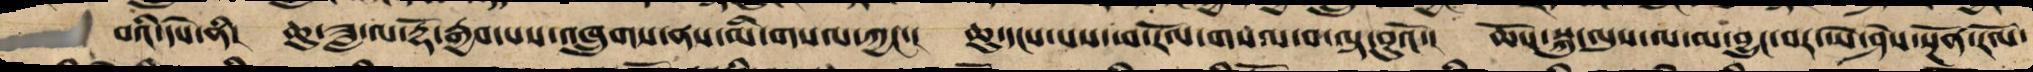བའི་དཔེ་ནི། ཆུ་ཟླ་ལ་རྡོ་རྒྱབ་པས་འཁྲུགས་ནས་མི་གསལ་ཀྱང་། ཆུ་དངས་པས་ཕ་རོལ་གསལ་བ་ལྟ་བུའོ་། ཆོས་སྐུ་ལུས་ལ་མ་བྱུང་བར་ཡེ་ཤེས་སྔོན་རོལ་
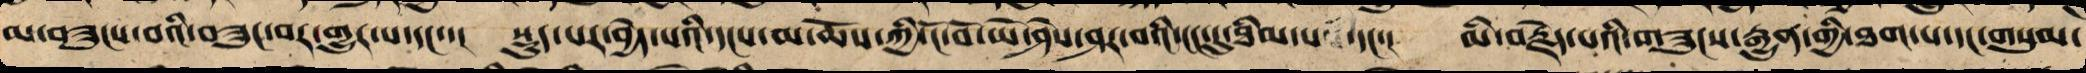མ་བཟུངས་བའི་བཟུང་བར་འགྱུར་བ་དང་་། སྡུད་པར་བྱེད་པའི་དངས་མ་ཆོས་ཀྱི་ངོ་བོ་ཡེ་ཤེས་ཤར་བའི་ངང་དུ་ཐིམ་པ ་དང་། མི་བརྗེད་པའི་གཟུངས་རྒྱུན་གྱི་ཐག་པ་དང་གསུམ་
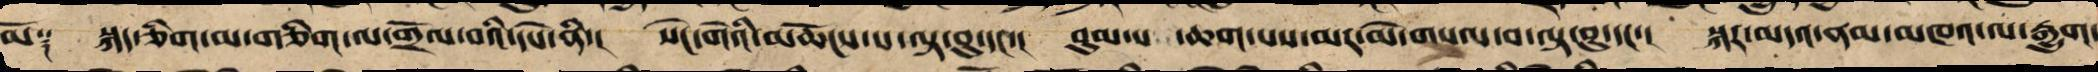མོ༑ སྐད་ཅིག་མ་གཅིག་ལ་གྲོལ་བའི་དཔེ་ནི་། སེང་གེའི་མཆོངས་པ་ལྟ་བུ་དང་། བུམ་པ ་ཆག་པས་མར་མེ་གསལ་བ་ལྟ་བུ་དང་། སྐར་མདའ་ནམ་མཁའ་ལ་རྒྱུག་
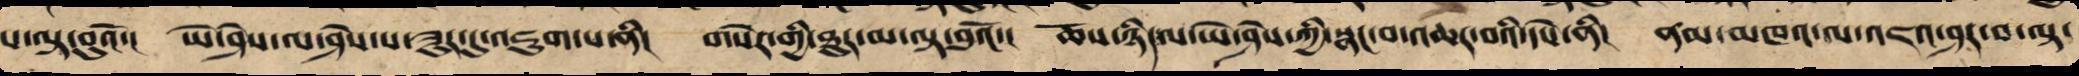པ་ལྟ་བུའོ་། ཡེ་ཤེས་ལ་ཤེས་པ་ཟུར་དུ་འཇུག་པ་ནི། གསེར་གྱི་ཐུར་མ་ལྟ་བུའོ་། ཆོས་ཉིད་ལ་ཡེ་ཤེས་ཀྱི་སྣང་བ་འཆར་བའི་དཔེ་ནི། ནམ་མཁའ་ལ་འཇའ་ཤར་བ་ལྟ་
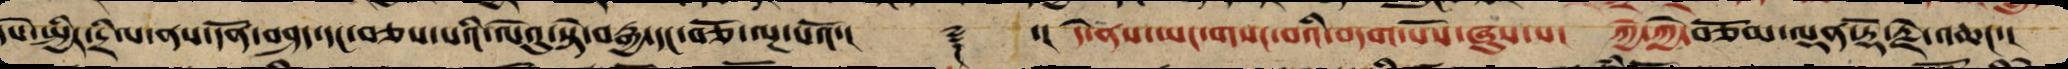དཔེ་སྤྱིར་དྲིལ་ནས་དོན་བཤད་དང་བཅས་པའི་ལེའུ་སྟེ་བརྒྱ་དང་བཅོ་ལྔ་པའོ་། ༈ ་། དེ་ནས་ཡང་གསང་བའི་བདག་པོས་ཞུས་པ། ཀྱེ་ཀྱེ་བཅོམ་ལྡན་རྡོ་རྗེ་འཆང་།
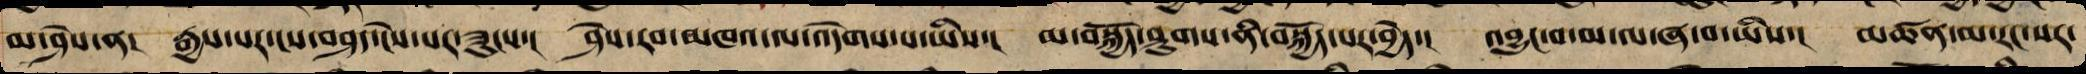མ་ཤེས་ན། རྒྱས་པར་ངས་བཤད་ངེས་པར་ཟུངས་། ཤེས་རབ་མཁའ་ལ་འདེགས་པ་ཡིས་། མ་བསྐྱོད་ཤུགས་ནི་བསྐྱོད་པར་བྱེད་། འབྱུང་བ་མ་ལ་ཞ་བ་ཡིས་། མཚན་མ་རང་སར་
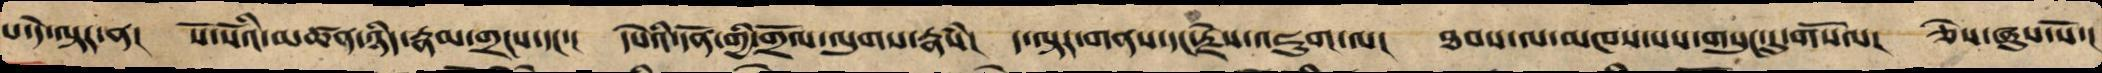པ་དེ་ལྟར་ན། སོ་སོའི་མཚན་ཉིད་རྣམ་གྲངས་དང་། དཔེའི་དོན་གྱི་གྲོལ་ལུགས་རྣཾས། ད་ལྟར་གནས་དང་རྗེས་འཇུག་ལ། ཐབས་ལ་མཁས་པས་གསུང་དུ་གསོལ། ཅེས་ཞུས་སོ་།
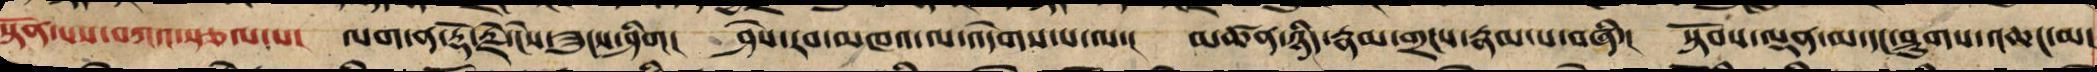སྟོན་པས་བཀའ་སྩལ་པ། ལག་ན་རྡོ་རྗེ་ངེས་ཟུངས་ཤིག། ཤེས་རབ་མཁའ་ལ་འདེགས་པ་ལ་། མཚན་ཉིད་རྣམ་གྲངས་རྣམ་པ་བཞི་། སྟོབས་ལྡན་མ་དང་ཤུགས་འཆང་མ།
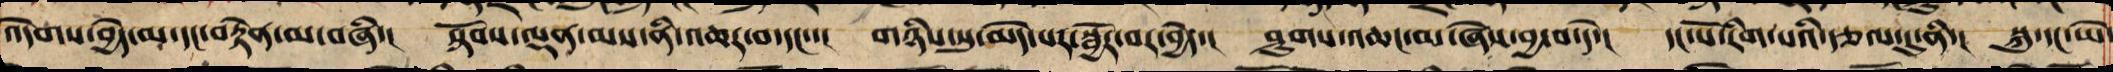འདེགས་བྱེད་མ་དང་བརྟེན་མ་བཞི་། སྟོབས་ལྡན་མས་ནི་འཆར་བ་དང་་། གཉིས་སུ་མེད་པར་སྦྱོར་བར་བྱེད་། ཤུགས་འཆང་མ་ཞེས་བྱ་བ་དེ་། དང་པོ་རིག་པའི་རྩལ་དུ་ནི་། སྐུ་དང་ཡེ་
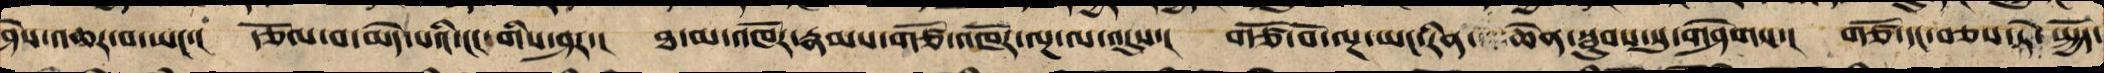ཤེས་འཆར་བ་ཡང་། རྩོལ་བ་མེད་པའི་ངང་གིས་ཤར་། ཐ་མ་འཁོར་རྣམས་གཙོ་འཁོར་ལྔ་ལ་འདུས་། གཙོ་བོ་ལྔ་ཡང་རིན་ ཆེན་སྦུབས་སུ་གཤེགས་། གཙོ་དང་བཅས་ཏེ་སྤྱོད་
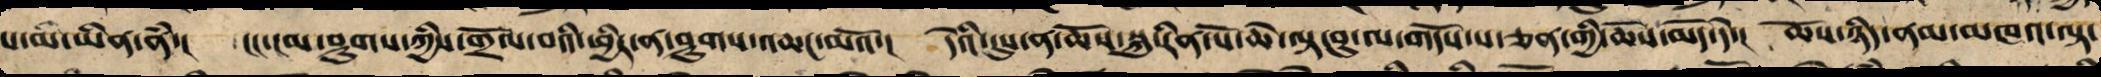པ་མ་ཡིན་ནཾ་། ངང་ངམ་ཤུགས་ཀྱིས་གྲོལ་བའི་ཕྱིར་ན་ཤུགས་འཆང་མའོ་། དེའི་དུས་ན་ཆོས་སྐུ་རིན་པོ་ཆེ་ལྟ་བུ་ལ་གདོས་པ་ཅན་གྱི་ཆོས་མེད་དེ་། ཆོས་ཉིད་ནམ་མཁའ་ལྟ་
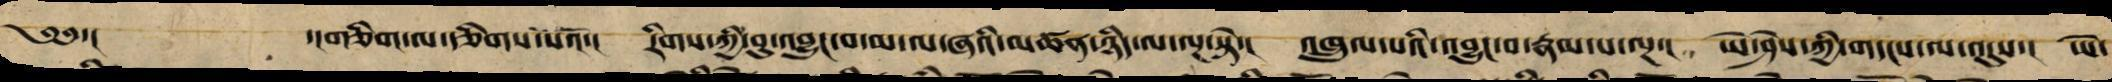༄༅་། ་།གཅིག་ལ་རྩིགས་པའོ་། རིགས་ཀྱི་བུ་འབྱུང་བ་མ་ལ་ཞའི་མཚན་ཉིད་ལ་ལྔ་སྟེ་། འཁྲུལ་པའི་འབྱུང་བ་རྣམ་པ་ལྔ་། ཡེ་ཤེས་ཀྱི་གདངས་ལ་འདུས་། ཡེ་
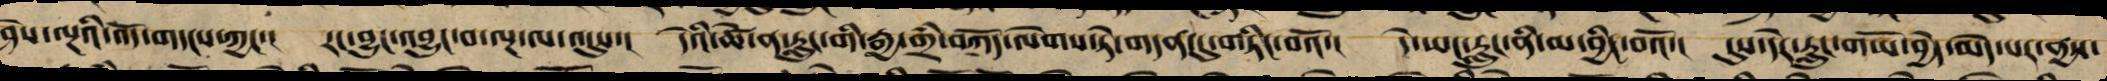ཤེས་ལྔའི་འོད་གདངས་ཀྱང་། རང་བྱུང་འབྱུང་བ་ལྔ་ལ་འདུས་། དེའི་ཚེ་ན་རླུང་གི་རྒྱ་གྲཾ་བཀོད་ལེགས་ཏེ་གདན་དུ་གཏིང་བའོ་། དེ་ཡང་རླུང་ནི་མ་བྱིང་བའོ་། དུས་དེར་རླུང་གཡོ་བྱེད་མེད་པར་ནྱས་
